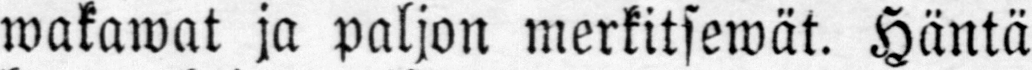wakawat ja paljon merkitsewät. Häntä
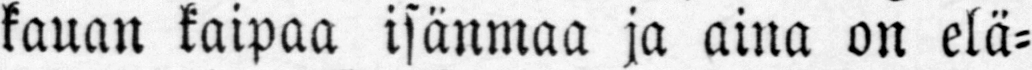kauan kaipaa isänmaa ja aina on elä-
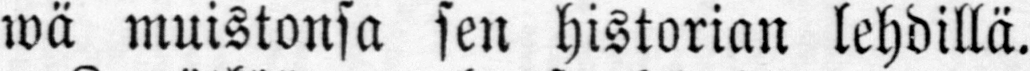wä muistonsa sen historian lehdillä.
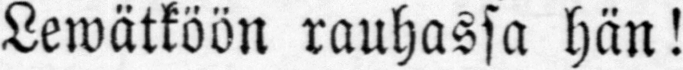Lewätköön rauhassa hän!
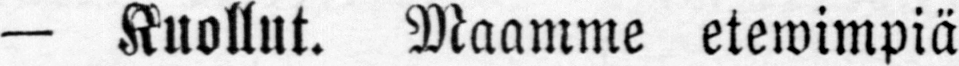— Kuollut. Maamme etewimpiä
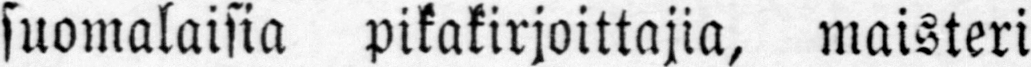suomalaisia pikakirjoittajia, maisteri
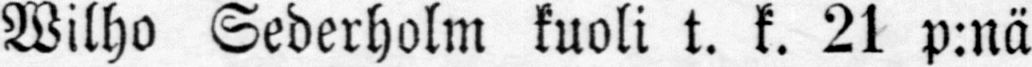Wilho Sederholm kuoli t. k. 21 p:nä
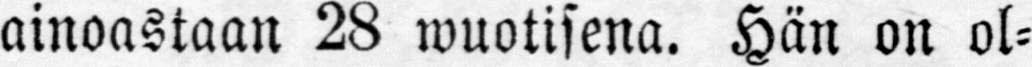ainoastaan 28 wuotisena. Hän on ol-
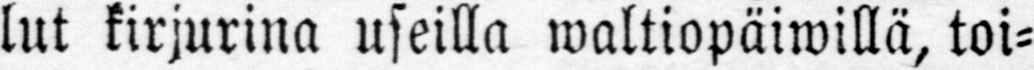lut kirjurina useilla waltiopäiwillä, toi-
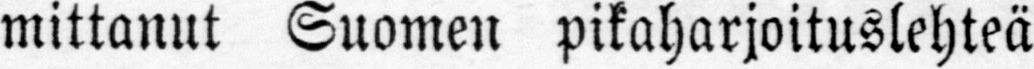mittanut Suomen pikaharjoituslehteä
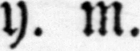y. m.
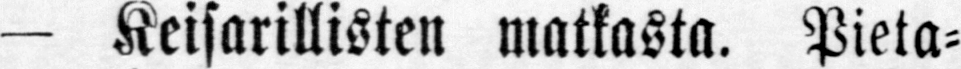— Keisarillisten matkasta. Pieta-
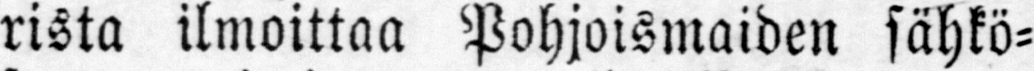rista ilmoittaa Pohjoismaiden sähkö-
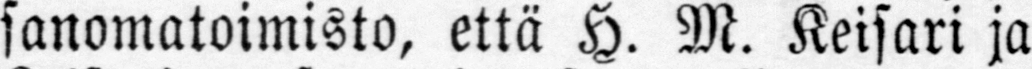sanomatoimisto, että H. M. Keisari ja
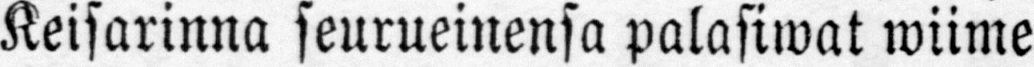Keisarinna seurueinensa palasiwat wiime
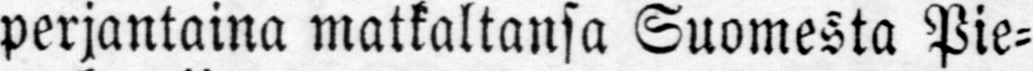perjantaina matkaltansa Suomesta Pie-
